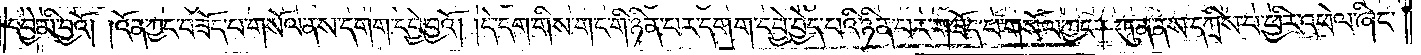དབྱེ་མི་བྱའོ། །འོན་ཀྱང་བཟོད་པ་གསོལ་ནས་དགག་དབྱེ་བྱའོ། །དེ་དག་གིས་གང་གི་ཉིན་བར་དགག་དབྱེ་བྱེད་པའི་ཉིན་པར་གཟོད་པ་གསོལ་ཀྱང༌། ཀུན་ནས་དཀྲིས་པ་ཕྱིར་འཕེལ་ཞིང་
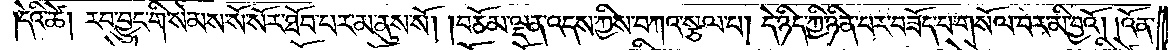དེའི་ཚེ། རབ་བྱུང་གི་སེམས་སོ་སོར་ཐོབ་པར་མ་ནུས་སོ། །བཅོམ་ལྡན་འདས་ཀྱིས་བཀའ་སྩལ་པ། དེ་ཉིད་ཀྱི་ཉིན་བར་བཟོད་པ་གསོལ་བར་མི་བྱའོ། །འོན་
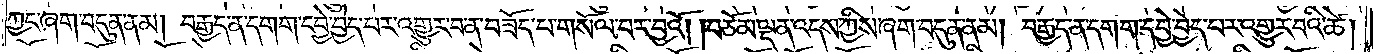ཀྱང་ཞག་བདུན་ནམ། བརྒྱད་ན་དགག་དབྱེ་བྱེད་པར་འགྱུར་བ་ན་བཟོད་པ་གསོལ་བར་བྱའོ། །བཅོམ་ལྡན་འདས་ཀྱིས་ཞག་བདུན་ནམ། བརྒྱད་ན་དགག་དབྱེ་བྱེད་པར་འགྱུར་བའི་ཚེ།
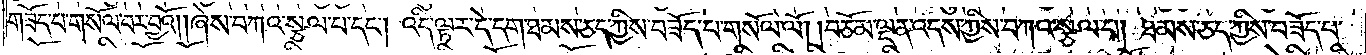གཟོད་པ་གསོལ་བར་བྱའོ། །ཞེས་བཀའ་སྩལ་པ་དང༌། འདི་ལྟར་དེ་དག་ཐམས་ཅད་ཀྱིས་བཟོད་པ་གསོལ་ལོ། །བཅོམ་ལྡན་འདས་ཀྱིས་བཀའ་སྩལ་པ། ཐམས་ཅད་ཀྱིས་བཟོད་པ་
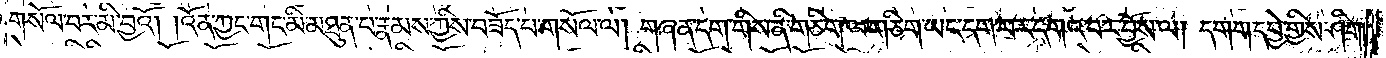གསོལ་བར་མི་བྱའོ། །འོན་ཀྱང་གང་མི་མཐུན་པ་རྣམས་ཀྱིས་བཟོད་པ་གསོལ་ལ། གཞན་དག་གིས་ནི་གཅིག་ལ་གཅིག་ཡང་དག་པར་དགའ་བར་བྱོས་ལ། དགག་དབྱེ་གྱིས་ཤིག་
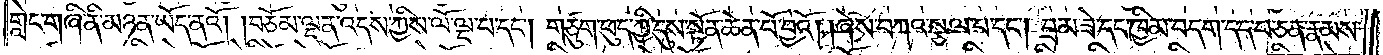གླེང་གཞི་ནི་མཉན་ཡོད་ནའོ། །བཅོམ་ལྡན་འདས་ཀྱིས་ལོ་ལྔ་པ་དང༌། གཙུག་ཕུད་ཀྱི་དུས་སྟོན་ཆེན་པོ་བྱའོ། །ཞེས་བཀའ་སྩལ་པ་དང༌། བྲམ་ཟེ་དང་ཁྱིམ་བདག་དད་པ་ཅན་རྣམས་
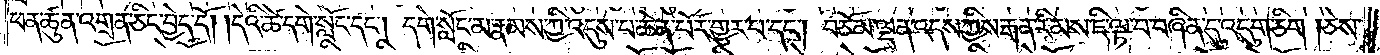ཕན་ཚུན་འགྲན་ཅིང་བྱེད་དོ། །དེའི་ཚེ་དགེ་སློང་དང༌། དགེ་སློང་མ་རྣམས་ཀྱི་འདུས་པ་ཆེན་པོར་གྱུར་པ་དང༌། བཅོམ་ལྡན་འདས་ཀྱིས་རྒན་རིམས་ཇི་ལྟ་བ་བཞིན་དུ་འདུག་ཅིག །ཅེས་
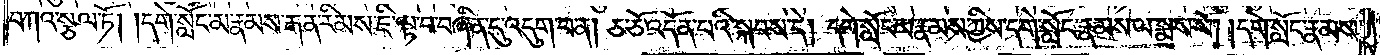བཀའ་སྩལ་ཏོ། །དགེ་སློང་མ་རྣམས་རྒན་རིམས་ཇི་ལྟ་བ་བཞིན་དུ་འདུག་པ་ན། ཅ་ཅོ་འདོན་པའི་སྐབས་དེ། དགེ་སློང་མ་རྣམས་ཀྱིས་དགེ་སློང་རྣམས་ལ་སྨྲས་སོ། །དགེ་སློང་རྣམས་
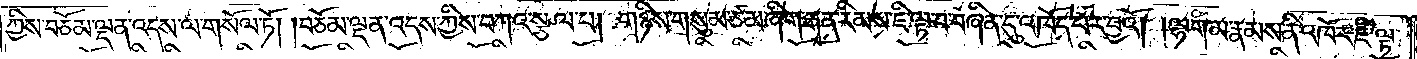ཀྱིས་བཅོམ་ལྡན་འདས་ལ་གསོལ་ཏོ། །བཅོམ་ལྡན་འདས་ཀྱིས་བཀའ་སྩལ་པ། གཉིས་གསུམ་ཙམ་ཞིག་རྒན་རིམས་ཇི་ལྟ་བ་བཞིན་དུ་འཁོད་པར་བྱའོ། །ལྷག་མ་རྣམས་ནི་འཁོར་ཇི་ལྟ་
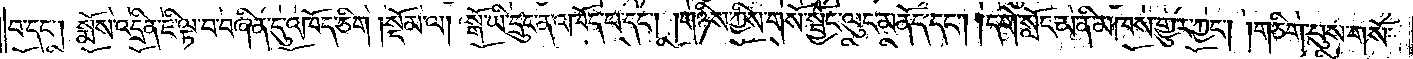བ་དང༌། སྨོས་འདྲིན་ཇི་ལྟ་བ་བཞིན་དུ་འཁོད་ཅིག    །སྡོམ་ལ། སྒོ་ཡི་དྲུང་ན་འཁོད་པ་དང༌། གཉིས་ཀྱིས་གསོ་སྦྱོང་ལུང་མནོད་དང༌། །དགེ་སློང་མ་ནི་མཁས་གྱུར་ཀྱང༌། །གཅིག་པུས་གསོ་
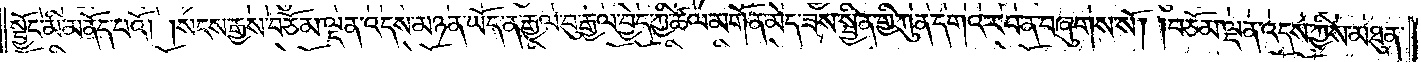སྦྱོང་མི་མནོད་པའོ། །སངས་རྒྱས་བཅོམ་ལྡན་འདས་མཉན་ཡོད་ན་རྒྱལ་བུ་རྒྱལ་བྱེད་ཀྱི་ཚལ་མགོན་མེད་ཟས་སྦྱིན་གྱི་ཀུན་དགའ་ར་བ་ན་བཞུགས་སོ། །བཅོམ་ལྡན་འདས་ཀྱིས་མཐུན་
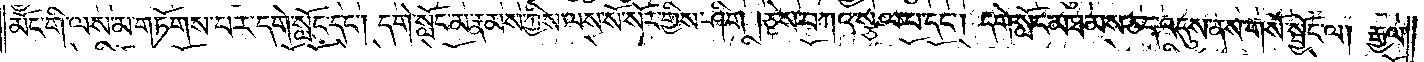མོང་གི་ལས་མ་གཏོགས་པར་དགེ་སློང་དང༌། དགེ་སློང་མ་རྣམས་ཀྱིས་ལས་སོ་སོར་གྱིས་ཤིག །ཅེས་བཀའ་སྩལ་པ་དང༌། དགེ་སློང་མ་ཐམས་ཅད་འདུས་ནས་གསོ་སྦྱོང་ལ། རྒྱལ་
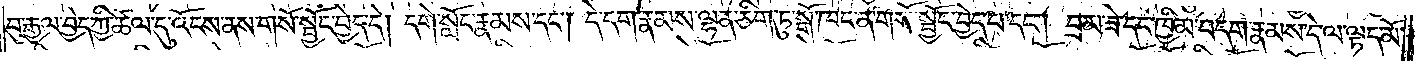བུ་རྒྱལ་བྱེད་ཀྱི་ཚལ་དུ་འོངས་ནས་གསོ་སྦྱོང་བྱེད་དེ། དགེ་སློང་རྣམས་དང༌། དེ་དག་རྣམས་ལྷན་ཅིག་ཏུ་སྒོ་ཁང་ན་གསོ་སྦྱོང་བྱེད་པ་དང༌། བྲམ་ཟེ་དང་ཁྱིམ་བདག་རྣམས་དེ་ལ་ལྟད་མོ་
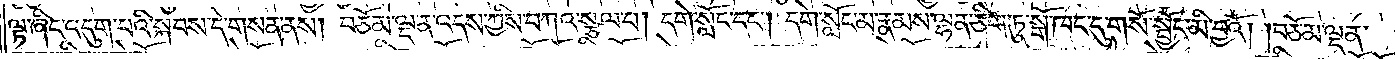ལྟ་ཞིང་འདུག་པའི་སྐབས་དེ་གསན་ནས། བཅོམ་ལྡན་འདས་ཀྱིས་བཀའ་སྩལ་པ། དགེ་སློང་དང༌། དགེ་སློང་མ་རྣམས་ལྷན་ཅིག་ཏུ་སྒོ་ཁང་དུ་གསོ་སྦྱོང་མི་བྱའོ། །བཅོམ་ལྡན་
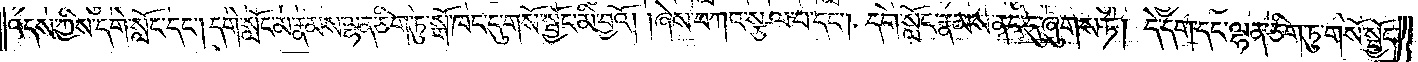འདས་ཀྱིས་དགེ་སློང་དང༌། དགེ་སློང་མ་རྣམས་ལྷན་ཅིག་ཏུ་སྒོ་ཁང་དུ་གསོ་སྦྱོང་མི་བྱའོ། །ཞེས་བཀའ་སྩལ་པ་དང༌། དགེ་སློང་རྣམས་ནང་དུ་ཞུགས་ཏེ། དེ་དག་དང་ལྷན་ཅིག་ཏུ་གསོ་སྦྱོང་
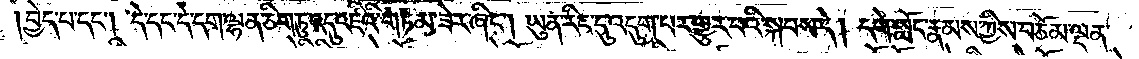བྱེད་པ་དང༌། དེ་དང་དེ་དག་ལྷན་ཅིག་ཏུ་འདུ་འཛིའི་གཏམ་ཟེར་ཞིང༌། ཡུན་རིང་དུ་འདུག་པར་གྱུར་པའི་སྐབས་དེ། དགེ་སློང་རྣམས་ཀྱིས་བཅོམ་ལྡན་
